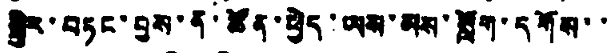སྤྱིར་བཏང་བྱས་ན་ཚོན་ཕྱེད་ཡས་མས་སློག་དགོས་་
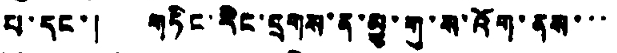པ་དང་། གཏིང་རིང་དྲགས་ན་མྱུ་གུ་ས་འོག་ནས་་་
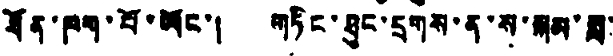ཐོན་ཁག་པོ་ཡོང་། གཏིང་ཐུང་དྲགས་ནས་ས་སྐམ་སླ་
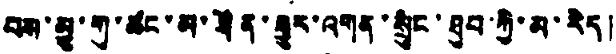བས་མྱུ་གུ་ཚང་མ་ཐོན་རྒྱུར་འགན་སྲུང་ཐུབ་ཀྱི་མ་རེད།
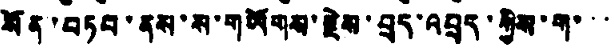སོན་བཏབ་ནས་ས་གཡོགས་རྗེས་བྲད་འབྲད་ཀྱིས་ག་་་
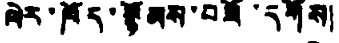ལེར་ཁོད་སྙོམས་བཟོ་དགོས།
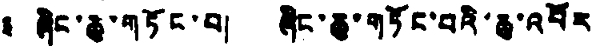༣ ཞིང་ཆུ་གཏོང་བ། ཞིང་ཆུ་གཏོང་བའི་ཆུ་འབོར
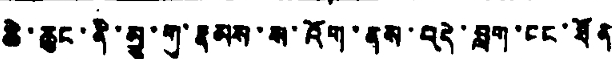ཆེ་ཆུང་ནི་མྱུ་གུ་རྣམས་ས་འོག་ནས་བདེ་བླག་ངང་ཐོན
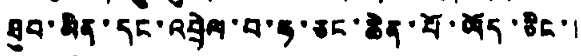ཐུབ་མིན་དང་འབྲེལ་བ་ཧ་ཅང་ཆེན་པོ་ཡོད་ཅིང་།
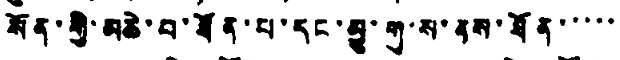སོན་གྱི་མཆེ་བ་ཐོན་པ་དང་མྱུ་གུ་ས་ནས་ཐོན་་་་་
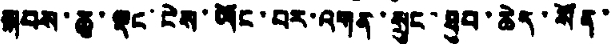སྐབས་ཆུ་ལྡང་ངེས་ཡོང་བར་འགན་སྲུང་ཐུབ་ཆེད་སོན་
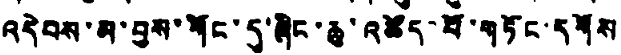འདེབས་མ་བྱས་གོང་དུ་ཞིང་ཆུ་འཚོད་པོ་གཏོང་དགོས
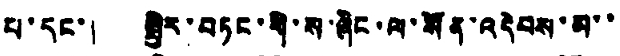པ་དང་། སྤྱིར་བཏང་གི་ས་ཞིང་ལ་སོན་འདེབས་མ་་
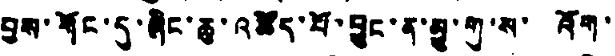བྱས་གོང་དུ་ཞིང་ཆུ་འཚོད་པོ་བྱུང་ན་མྱུ་གུ་ས་ འོག་
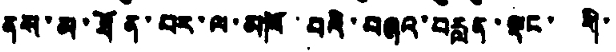ནས་མ་ཐོན་བར་ལ་མཁོ་བའི་བཞའ་བརླན་ལྡང་ གི་
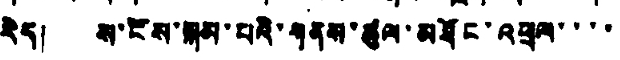རེད། ས་ངོས་སྐམ་པའི་གནས་ཚུལ་མཐོང་འཕྲལ་་་་
